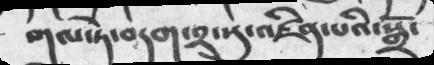གལ་ཏེ་བདག་༢་སུ་འཛིན་པའི་སྒྲོ་
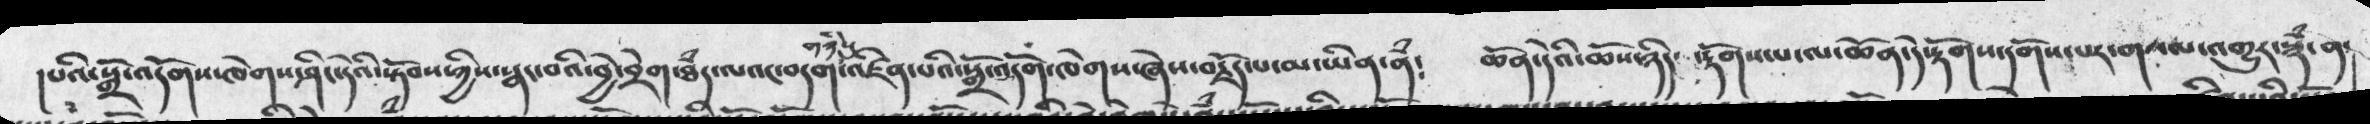།པའི་སྒྲོ་འདོགས་ཁེགས་ཤིང་དེའི་སྟོབས་ཀྱིས་སྣང་བའི་བྱེ་བྲག་ཐཾད་ལའང་བདག་གཉིསུ་འཛིན་པའི་སྒྲོ་འདོག་ཁེགས་ཞེས་བརྗོད་པ་མ་ཡིན་ནཾ༴  ཆོན་དེའི་ཆོས་ཉིད་ རྟོགས་པ་ལ་ཆོན་དེ་རྟོགས་དགོས་པར་གསལ་འགྱུར་སྙཾ་ན་
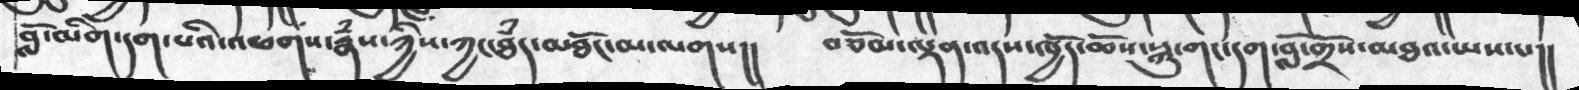བློ་མིག་དག་པའི་འཕགས་རྣཾས་ཀྱིས་ཀྱང་ཐཾད་མཐོང་མ་ལགས།།   བཅོམ་ལྡན་འདས་ཁྱོད་ཆོས་སྐུ་གང་དག་བློ་གྲོས་མཐའ་ཡས་པ་།།
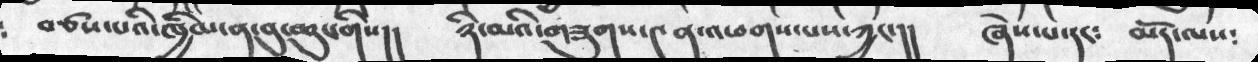བཙས་པའི་ཁྱིམ་ན་བུ་ཆུང་གིས།།   ཉི་མའི་གཟུགས་༤ན་འཕགས་པས་ཀྱང་།།   ཞེས་པ་དང༴   མདོ་ལས༴
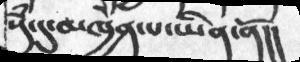སུཾ་དུ་མཁྱེན་པ་ཡིན་ནོ།།
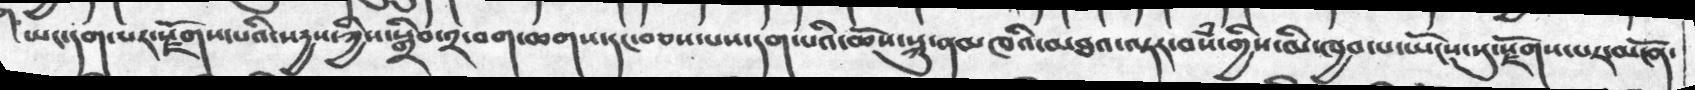ཡང་དག་པར་སྫོགས་པའི་སདྱས་ཀྱིས་སྒྲིབ་༢་བག་ཆགས་དང་བཅས་པས་དག་པའི་ཆོས་སྐུ་ནམཁའི་མཐའ་ལྟར་བསཾ་གྱིས་མི་ཁྱབ་པ་ཡོངས་སུ་སྫོགས་པར་མངོན་
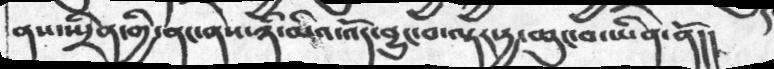ནས་སྤྲིན་གྱི་ནང་ནས་ཉི་མའི་འོད་བྱུང་བ་ལྟར་དྱ་ཆུང་བ་ཡིན་ནོ།།
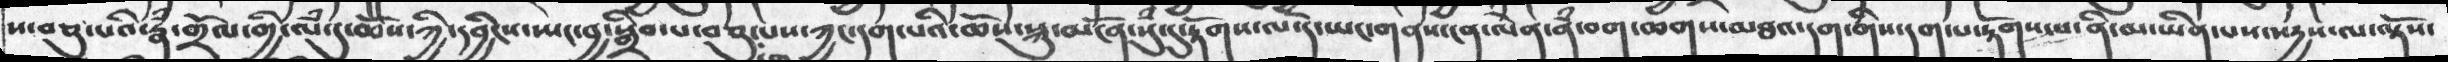ས་བཅུ་པའི་རྣཾ་གྲོལ་གྱི་ལྃ་དུ་ཆོསཀྱི་དབྱིངས་སྤང་བྱ་སྒྲིབ་པ་བཅུ་པས་ཀྱང་དག་པའི་ཆོས་སྐུ་མོངན་སུཾ་དུ་རྟོགས་ལ་དེ་ཡང་གནས་ངན་ལེན་ནཾ་བག་ཆགས་མཐའ་དག་གིས་དག་པ་རྟོགས་པ་ནི་མ་ཡིན་པས་སདྱས་ལ་ལྟོས་
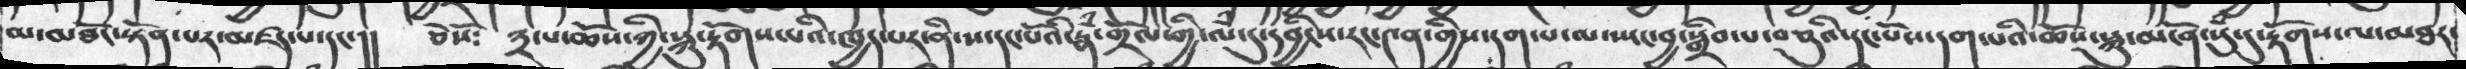མ་མཐོང་སྟོན་པར་མཛད་པ་དང་།།  ཅེསོ༴  ༣་པ་ཆོས་ཀྱི་སྐུ་རྟོགས་པའི་ཁྱད་པར་ནི་ས་དང་པོའི་རྣཾ་གྲོལ་གྱི་ལཾ་དུ་དབྱིངས་རང་༤ན་གྱིས་དག་པ་ལ་ཡང་བྱ་སྒྲིབ་པ་བཅུའི་དང་པོས་དག་པའི་ཆོས་སྐུ་མངོན་སུཾ་དུ་རྟོགས་ལ་མཐར་
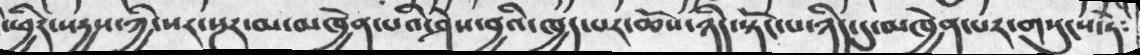་ཕྱིར་སདྱས་ཀྱི་སར་སྔར་མ་མཁྱེན་པའི་ཤེས་བྱའི་ཁྱད་པར་ཆོས་ཉིད་སྟོང་པ་ཉིད་དུ་མཁྱེན་པར་གསུངས་ཏེ༴
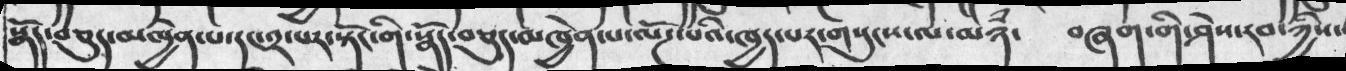སྣོད་བཅུད་མཁྱེན་པ་དང་༢་པར་སྟོང་གི་སྣོད་བཅུད་མཁྱེན་པ་ལོཌ་པའི་ཁྱད་པར་གསུངས་ལ་མཉཾ་   བཞག་གི་ཤེས་རབ་ཀྱིས་
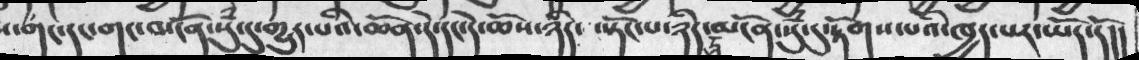ང་གང་དང་ག་མངོན་སུཾ་དུ་གྱུར་པའི་ཆོས་དེ་དང་དེ་ཆོས་ཉིད་སྟོང་པ་ཉིད་དུ་མངོན་དུ་མངོན་སུཾ་དུ་རྟོགས་པའི་ཁྱད་པར་ཡོད་དོ།།
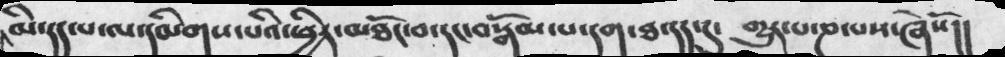མི་དད་པ་ལ་དམིགས་པའི་ཕྱིར་མཐོང་བ་དང་བསྒོམ་པ་དག་ཐ་དད་དུ་   གྱུར་པ་ཎ་པས་ཞེསོ།།
